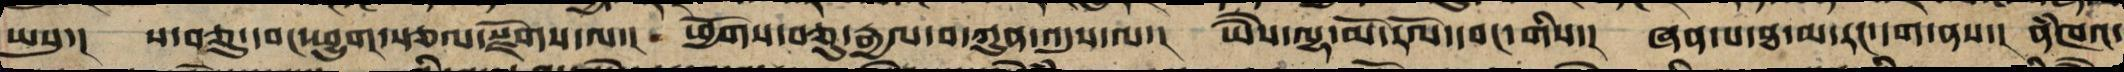ཡསུ་། ས་བཅུ་དབང་ཕྱུག་རྩལ་སྫོགས་ལ་། ཕྱོགས་བཅུ་རྒྱལ་བ་ཀུན་འདུས་ལ་། ཡཻས་ལྷ་མོར་རོལ་དབང་གིས་། ཞན་པ་ཐ་མ་རང་དག་ནས་། ནཾཁའ་
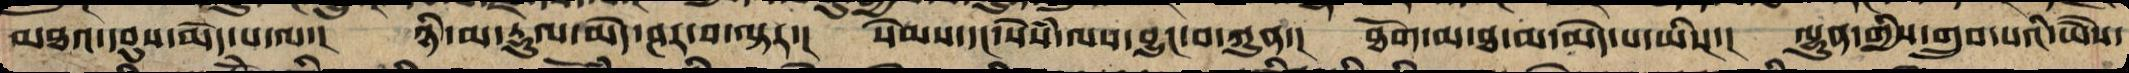མཐའ་དབུས་མེད་པ་ལ་། ཉི་མ་རྡུལ་མེད་ཤར་བ་ལྟར་། སེམས་དང་སེཾས་ལས་བྱུང་བ་ཀུན་། ཐོག་མ་ཐ་མ་མེད་པ་ཡི་། ལྷུན་གྱིས་གྲུབ་པའི་ཡཻས་
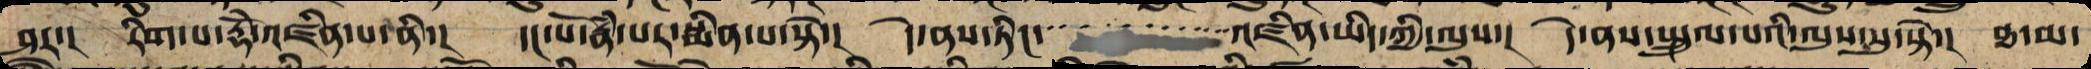ཤར་། རིག་པ་རྡོེ་འཛིན་པ་ནི་། དང་པོ་རྣཾ་པར་སྨིན་པ་སྟེ་། དེ་ནས་ཏིང་འཛིན་ཡིད་ཀྱི་ལུས་། དེ་ནས་སྤྲུལ་པའི་ལུས་སུ་སྟེ་། ཐ་མ་
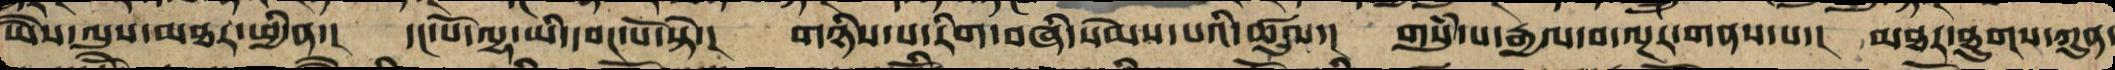ཡཻས་ལུས་མཐར་ཕྱིན་། དང་པོ་ལྷ་ཡི་དབང་པོ་སྟེ་། གཉིས་པ་རིག་བཞི་སེམས་དཔའི་ཚུལ་། གསུཾ་པ་རྒྱལ་བ་ལྔར་གནས་པ་། མཐར་ཐུགས་ཀུན་
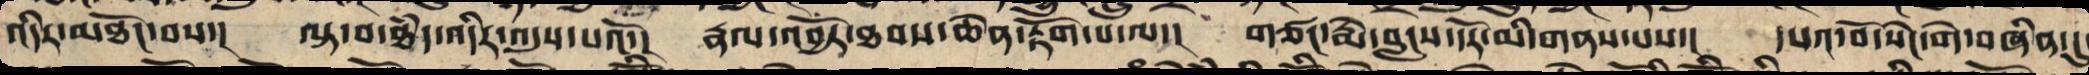འདིར་མཐོང་བས་། ལྟ་བ་ཐཾད་འདིར་འདུས་པའོ་། རྣལ་འབྱོར་ཐབས་ཆེན་རྟོགས་པ་ལ་། གཙང་སྨེ་བླང་དོར་མི་གནས་པས་། དཔའ་བོ་སེང་གེ་བཞིན་དུ་
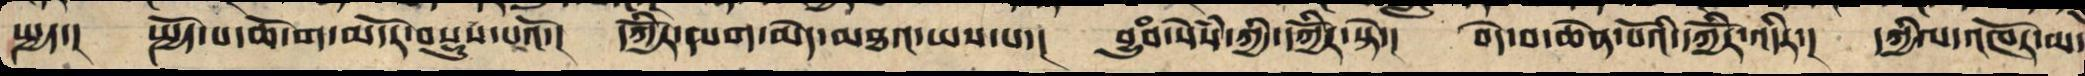སྤྱད་། སྤྱོད་པ་ཆོ་ག་མདོར་བསྡུས་པའོ་། དཀྱིོར་དཔག་མེད་མཐའ་ཡས་པ་། བྱུཾབ་སེཾས་ཀྱི་དཀྱིོར་ཏེ་། བདེ་བ་ཆེན་པོའི་དཀྱིོར་འདིར་། དཀྱིལ་འཁོར་མ་
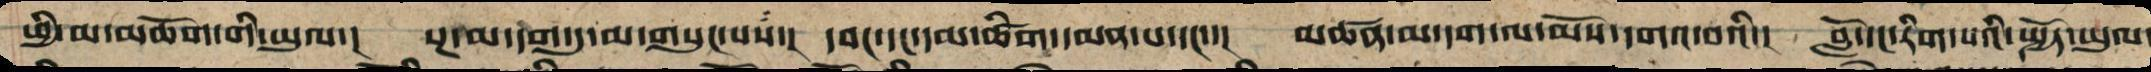ཕྱི་མ་མཆོག་གི་ཡུལ་། སྔ་མ་དག་ཏུ་མ་གསུངས་པ་། དབང་དང་དམ་ཚིག་དམན་པ་དང་་། མཚན་མ་དག་ལ་མོས་དགའ་བའི་། བློ་དང་རིག་པའི་སྤྱོད་ཡུལ་
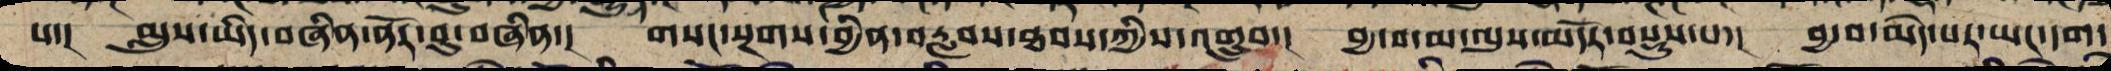པ་། མུས་ཡིད་བཞིན་ནོར་བུ་བཞིན་། གསང་སྔགས་བྱིན་བརླབས་ཐབས་ཀྱིས་འགྲུབ་། བྱ་བ་མ་ལུས་མདོར་བསྡུས་པ་། བྱ་བ་མེད་པར་ཡང་དག་
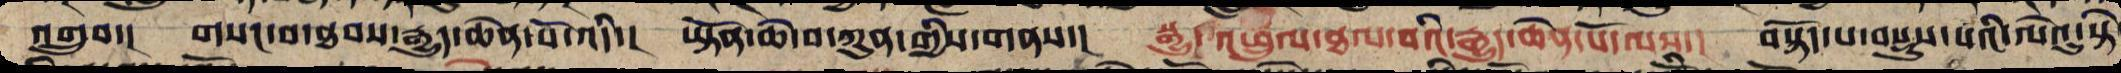འགྲུབ་། གསང་བ་ཐལ་རྒྱུད་ཆེན་པོ་འདི་། ཡྟོན་ཆེ་བ་ཀུན་གྱི་གནས་། སྒྱུ་འཕྲུལ་ཐལ་བའི་རྒྱུད་ཆེན་པོ་ལས་། བསྟོད་པ་བསྡུས་པའི་ལེའུ་སྟེ
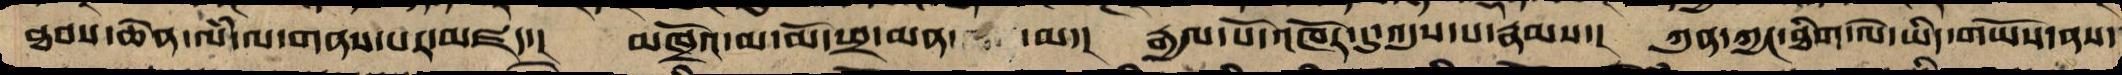ཐབས་ཆེན་ལཾ་ལ་གནས་པར་མཛད་། མཁྲོའ་མ་མོ་ཕྲ་མན་མ་། རྒྱལ་པོ་འཁོར་དུ་འདུས་པ་རྣཾས་། ཀུན་ཀྱང་ཐིག་ལེ་ཡིད་གཡོས་ནས་
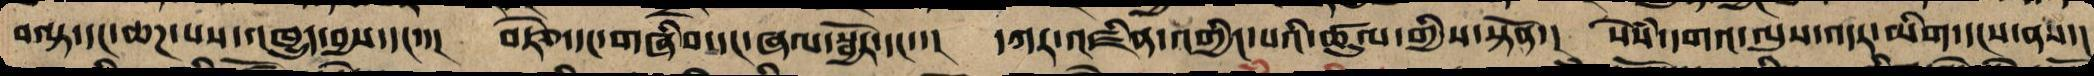བལྟ་དང་ཆཌ་པས་འཁྱུད་བྱས་དང་་། བརྩེ་དང་གཞིབ་དང་ཞལ་སྦྱོར་དང་་། དཀར་འཛིན་འགྱིང་བའི་ཚུལ་གྱིས་སྟོན་། སེཾས་དགའ་ལུས་འདར་མིག་དྭངས་ནས་།
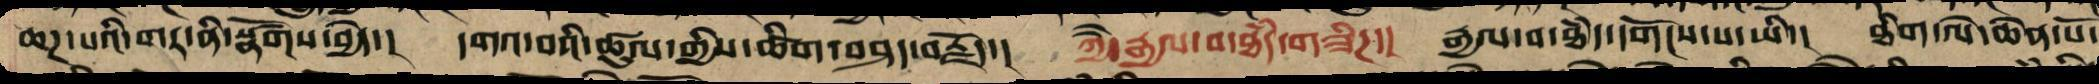ཆཌ་པའི་གར་ནི་སྣཚོགས་བྱེད་། དགའ་བའི་ཚུལ་གྱིས་ཚིག་བཤད་བརྗོད་། ཀྱཻ་རྒྱལ་བ་ཐཾད་གཟིཌ་། རྒྱལ་བ་ཐཾད་དགོངས་པ་ཡི་། ཐིག་ལེ་ཆེན་པོ་
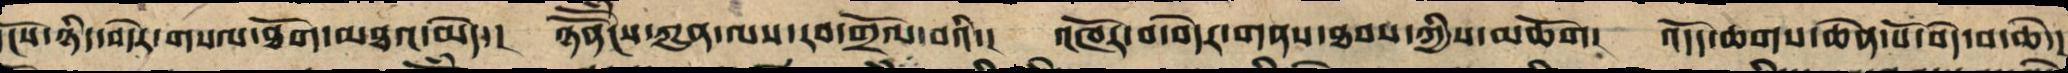ངོས་ཉིད་བདེར་གསལ་ཐོག་མཐའ་མེད་། ཉོནོངས་ཀུན་ལས་རབ་གྲོལ་བའི་། འཁོར་བ་བདེར་གནས་ཐབས་ཀྱི་མཆོག། འདོད་ཆགས་ཆེན་པོ་བདེ་བ་ཆེ་།
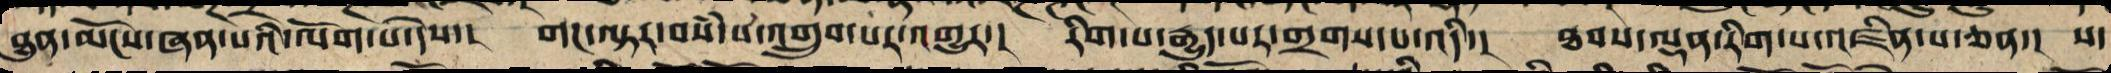ཐུན་མོང་ཞེན་པ་ལོག་པ་དེས་། གང་ལྟར་བསཾ་པ་འགྲུབ་པར་འགྱུར་། རིག་པ་བརྒྱུད་པར་གྲགས་པ་འདི་། ཐབས་ལྡན་རིག་པ་འཛིན་པ་ཅན་། ས་
